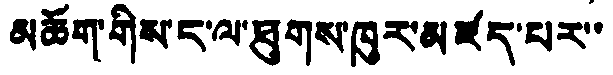མཆོག་གིས་ང་ལ་ཐུགས་ཁུར་མཛད་པར་་
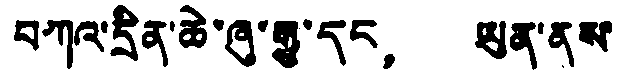བཀའ་དྲིན་ཆེ་ཞུ་རྒྱུ་དང， ཡུན་ནས་
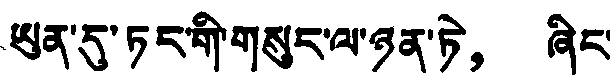ཡུན་དུ་ཏང་གི་གསུང་ལ་ཉན་ཏེ， ཞིང་
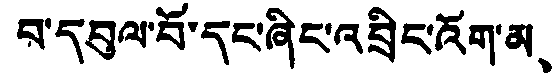བ་དབུལ་བོ་དང་ཞིང་འབྲིང་འོག་མ、
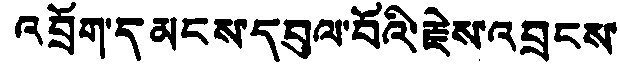འབྲོག་དམངས་དབུལ་བོའི་རྗེས་འབྲངས་
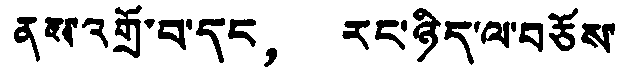ནས་འགྲོ་བ་དང， རང་ཉིད་ལ་བཅོས་
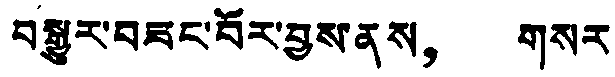བསྒྱུར་བཟང་བོར་བྱས་ནས， གསར
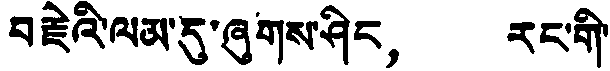བརྗེའི་ལམ་དུ་ཞུགས་ཤིང， རང་གི་
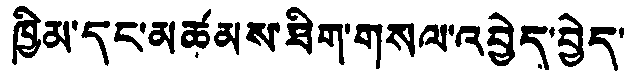ཁྱིམ་དང་མཚམས་ཟིག་གསལ་འབྱེད་བྱེད་
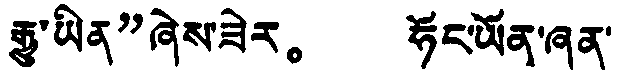རྒྱུ་ཡིན”ཞེས་ཟེར。 ཧོང་ཡོན་ཞན་
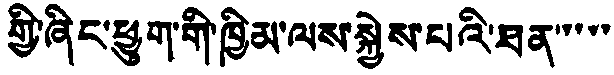གྱི་ཞིང་ཕྱུག་གི་ཁྱིམ་ལས་སྐྱེས་པའི་ཐན་་་་་
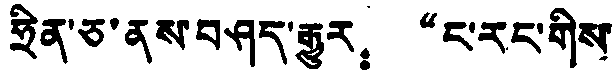ཧྲིན་ཅ་ནས་བཤད་རྒྱུར： “ང་རང་གིས་
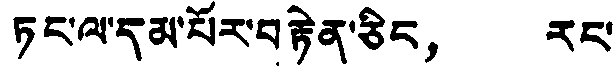ཏང་ལ་དམ་པོར་བརྟེན་ཅིང， རང་
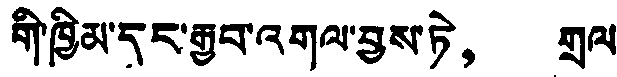གི་ཁྱིམ་དང་རྒྱབ་འགལ་བྱས་ཏེ， གྲལ
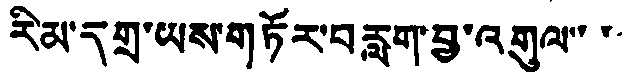རིམ་དགྲ་ཡས་གཏོར་བརླག་བྱ་འགུལ་་་
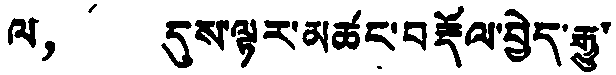ལ， དུས་ལྟར་མཚང་བརྡོལ་བྱེད་རྒྱུ་
